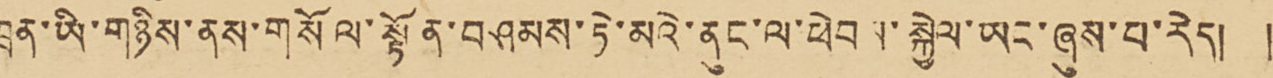ཁྲན་ཡི་གཉིས་ནས་གསོལ་སྟོན་བཤམས་ཏེ་མའེ་ནུང་ལ་ཕེབས་སྐྱེལ་ཡང་ཞུས་པ་རེད། །
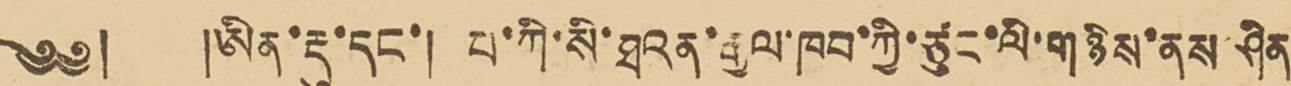༄༅། །ཨིན་རྡུ་དང་། པ་ཀི་སི་ཐའན་རྒྱལ་ཁབ་ཀྱི་ཙུང་ལི་གཉིས་ནས་ཤིན་
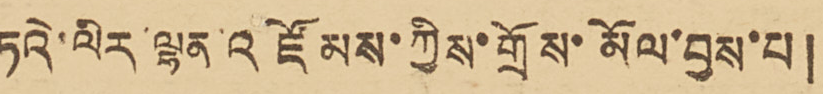ཏའེ་ལིར་ལྷན འཛོམས་ཀྱིས་གྲོས་མོལ་བྱས་པ།
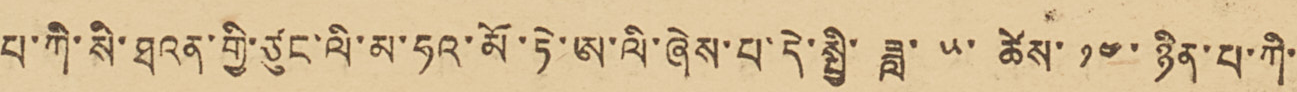པ་ཀི་སི་ཐའན་གྱི་ཙུང་ལི་མ་ཧའ་མོ་ཏེ་ཨ་ལི་ཞེས་པ་དེ་སྤྱི་ཟླ་ ༥ ཚེས་ ༡༤ ཉིན་པ་ཀི་་
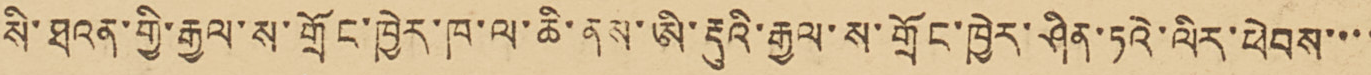སི་ཐའན་གྱི་རྒྱལ་ས་གྲོང་ཁྱེར་ཁ་ལ་ཆི་ནས་ཨི་རྡུའི་རྒྱལ་ས་གྲོང་ཁྱེར་ཤིན་ཏའེ་ལིར་ཕེབས་་་་
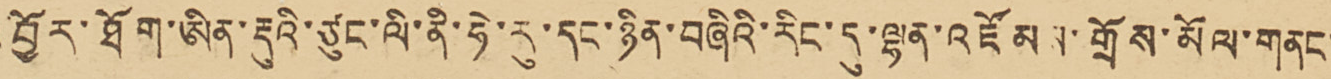འབྱོར་ཐོག་ཨིན་རྡུའི་ཙུང་ལི་ནི་ཧེ་རུ་དང་ཉིན་བཞིའི་རིང་དུ་ལྷན་འཛོམས་གྲོས་མོལ་གནང་་
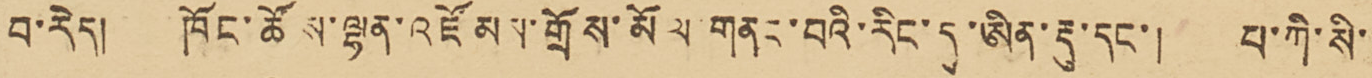བ་རེད། ཁོང་ཚོས་ལྷན་འཛོམས་གྲོས་མོལ གནང་བའི་རིང་དུ་ཨིན་རྡུ་དང་། པ་ཀི་སི་་
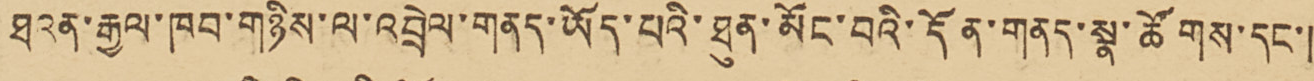ཐའན་རྒྱལ་ཁབ་གཉིས་ལ་འབྲེལ་གནད་ཡོད་པའི་ཐུན་མོང་བའི་དོན་གནད་སྣ་ཚོགས་དང་།
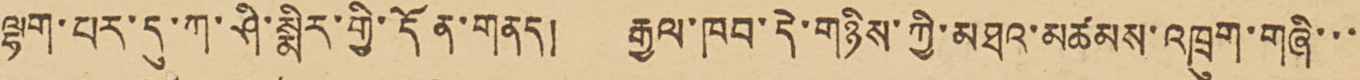ལྷག་པར་དུ་ཀ་ཤི་སྨིར་གྱི་དོན་གནད། རྒྱལ་ཁབ་དེ་གཉིས་ཀྱི་མཐའ་མཚམས་འཁྲུག་གཞི་་་་
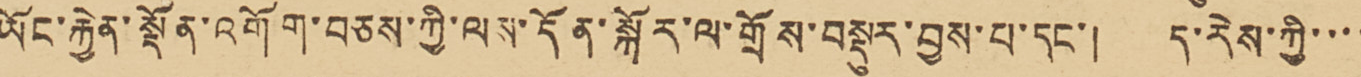ཡོང་རྐྱེན་སྔོན་འགོག་བཅས་ཀྱི་ལས་དོན་སྐོར་ལ་གྲོས་བསྡུར་བྱས་པ་དང་། ད་རེས་ཀྱི་་་་
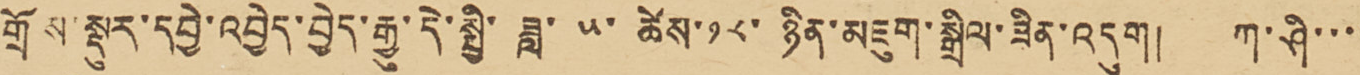གྲོས་སྡུར་དབྱེ་འབྱེད་བྱེད་རྒྱུ་དེ་སྤྱི་ཟླ་ ༥ ཚེས་ ༡༨ ཉིན་མཇུག་སྒྲིལ་ཟིན་འདུག། ཀ་ཤི་་་་
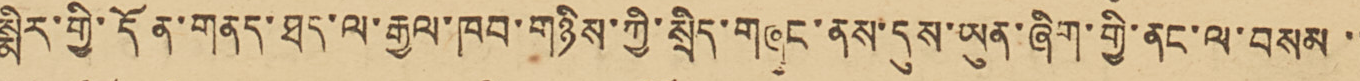སྨིར་གྱི་དོན་གནད་ཐད་ལ་རྒྱལ་ཁབ་གཉིས་ཀྱི་སྲིད་གཞུང་ནས་དུས་ཡུན་ཞིག་གྱི་ནང་ལ་བསམ་་
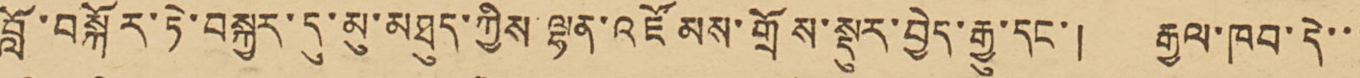བློ་བསྐོར་ཏེ་བསྐྱར་དུ་མུ་མཐུད་ཀྱིས་ལྷན་འཛོམས་གྲོས་སྡུར་བྱེད་རྒྱུ་དང་། རྒྱལ་ཁབ་དེ་་་
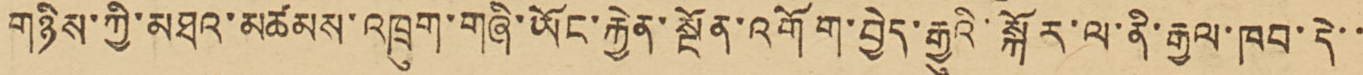གཉིས་ཀྱི་མཐའ་མཚམས་འཁྲུག་གཞི་ཡོང་རྐྱེན་སྔོན་འགོག་བྱེད་རྒྱུའི་སྐོར་ལ་ནི་རྒྱལ་ཁབ་དེ་་་
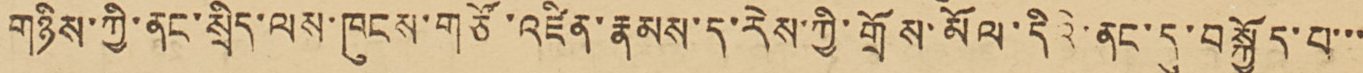གཉིས་ཀྱི་ནང་སྲིད་ལས་ཁུངས་གཙོ་འཛིན་རྣམས་ད་རེས་ཀྱི་གྲོས་མོལ་དིའི་ནང་དུ་བསྐྱོད་པ་་་་
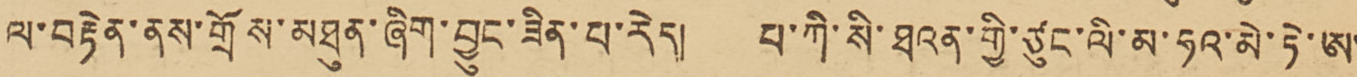ལ་བརྟེན་ནས་གྲོས་མཐུན་ཞིག་བྱུང་ཟིན་པ་རེད། པ་ཀི་སི་ཐའན་གྱི་ཙུང་ལི་མ་ཧའ་མེ་ཏེ་ཨ་་
